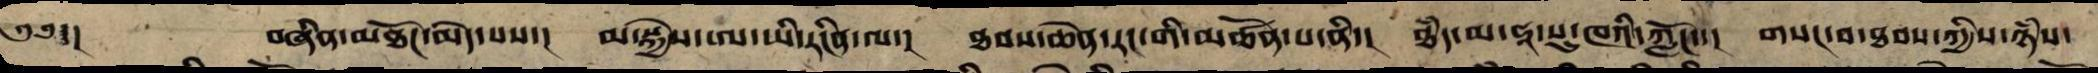༄༅་།      བཞིན་མཐོང་མེད་པས་། མ་སྐྱེས་ཨ་ཡི་རངིན་ལ་། ཐབས་ཆེན་རང་གི་མཚོན་པ་ནི་། ཐཾད་མ་ཧཱ་སུ་ཁའི་ཀློང་་། གསང་བ་ཐབས་ཀྱི་ཉཾས་
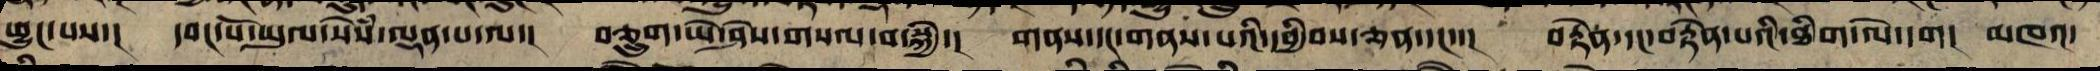ཕྱུང་པས་། དབང་པོ་ཡུལ་སེཾས་ལྡན་པ་ལ་། བཅྲུག་ཡེ་ཤེས་གསལ་བ་སྐྱེ་། གནས་དང་གནས་པའི་དབྱིབས་ཅན་དང་་། བརྟེན་དང་བརྟེན་པའི་ཐིག་ལེ་དག། མཁའ་
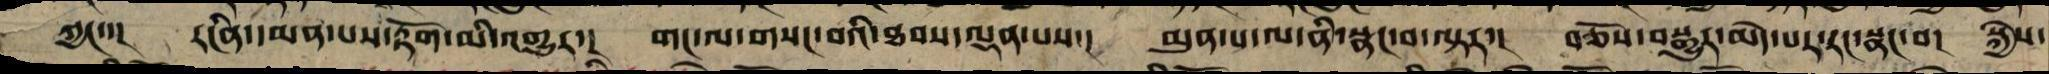ཀྱང་། རངིན་དམན་པས་རྟོག་མི་འགྱུར་།  གང་ལ་གསང་བའི་ཐབས་ལྡན་པས་།  མུན་པ་ལ་ནི་སྣང་བ་ལྟར་།  བཅོས་བསྒྱུར་མེད་པར་རང་སྣང་བ། སྐྱེས་
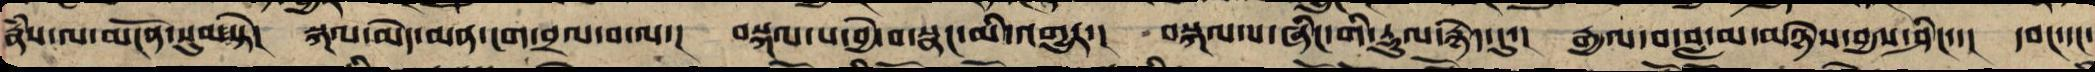རྣཾས་ལ་མངོན་སུམ་སྟེ། སྐལ་མེད་མན་ངག་བྲལ་བ་ལ་། བསྐལ་པ་བྱེ་བ་སྣང་མི་འགྱུར་། བསྐལ་པ་ཞིང་གི་རྡུལ་སྙེད་དུ་། རྒྱལ་བ་བླ་མ་མཉེས་བྱས་ཤིང་་། དབང་དང་
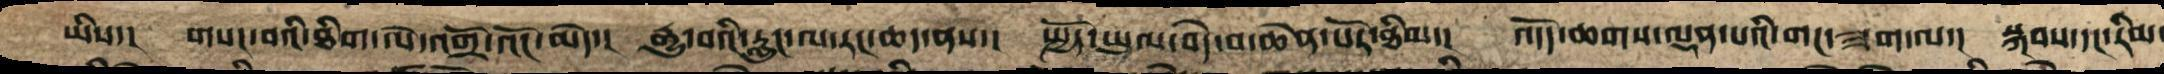ཡིས་། གསང་བའི་ཐིག་ལེ་འགྲོ་འོང་མེད་། རྒྱུ་བའི་རླུང་ལ་རང་ཆད་ནས་། སྤྱོད་ཡུལ་བདེ་བ་ཆེན་པོར་ཐིམ་། འདོད་ཆགས་ལྡན་པའི་གང་ཟག་ལ་། སྐབས་དང་རིམ་
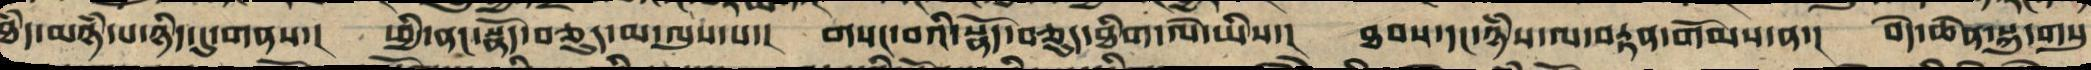ཐཾད་མཉཾ་པ་ཉིད་དུ་གནས་། ཕྱི་ནང་སྣོད་བཅུད་མ་ལུས་པ་། གསང་བའི་སྣོད་བཅུད་ཐིག་ལེ་ཡིས་། ཐབས་དང་ཉཾས་ལ་བརྟན་གོམས་ན་། བདེ་ཆེན་སྐུ་གསུ
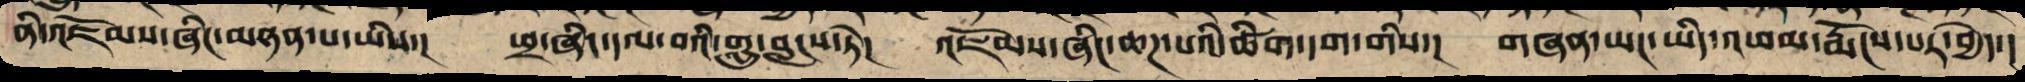ནི་འཇོམས་ཞིང་མཉན་པ་ཡིས་། ཕྲ་ཞིང་དལ་བའི་གླུ་བླངས་ཏེ། འཇོམས་ཞིང་ཆཌ་པའི་ཚིག་དག་གིས་། གཞན་ཡང་ཡིད་འཕམ་རྨོངས་པར་བྱེད་།
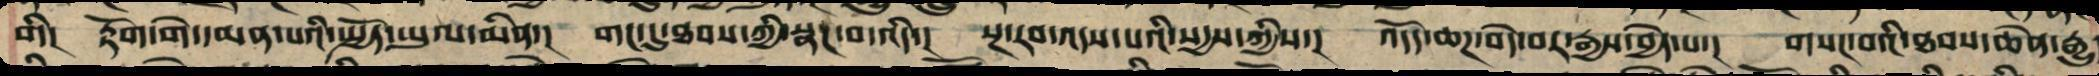གི་། རྟོག་གེ་དམན་པའི་སྤྱོད་ཡུལ་མིན་། གང་དུ་ཐབས་ཀྱི་སྣང་བ་འདི་། སྔ་རབ་འདས་པའི་སདྱས་ཀྱིས་། འདོད་ཆཌ་བདེ་བར་རྒྱས་བྱེད་པ་། གསང་བའི་ཐབས་ཆེན་རྒྱུད
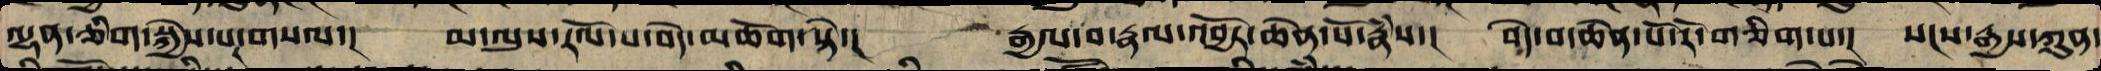ལྷན་ཅིག་སྐྱེས་པར་གསལ་། མ་ལུས་རོལ་པ་བདེ་མཆོག་སྟེ་། རྒྱལ་བ་རྣལ་འབྱོར་ཆེན་པོ་རྣཾས་། བདེ་བ་ཆེན་པོ་རོ་གཅིག་པ་། སངས་རྒྱས་ཀུན་
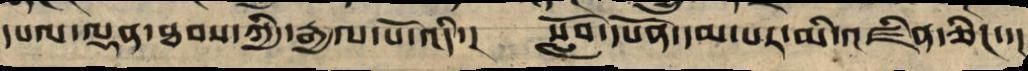དཔལ་ལྡན་ཐབས་ཀྱི་རྒྱལ་པོ་འདི་།  སློབ་དཔོན་དམ་པར་མི་འཛིན་ཅིང་་།
